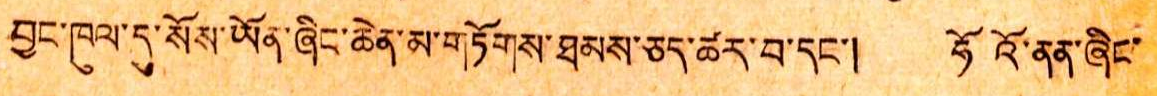བྱང་ཁུལ་དུ་སོས་ཡོན་ཞིང་ཆེན་མ་གཏོགས་ཐམས་ཅད་ཚར་བ་དང་། ཧོའོ་ནན་ཞིང་
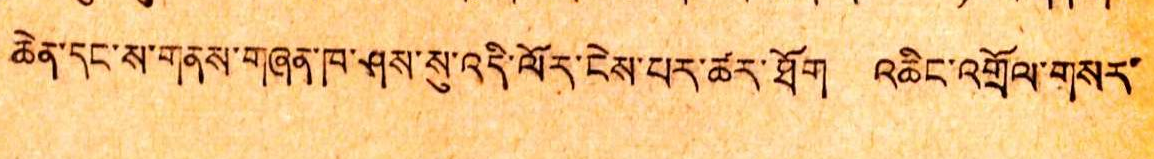ཆེན་དང་ས་གནས་གཞན་ཁ་ཤས་སུ་འདི་ལོར་ངེས་པར་ཚར་ཐོག འཆིང་འགྲོལ་གསར་
